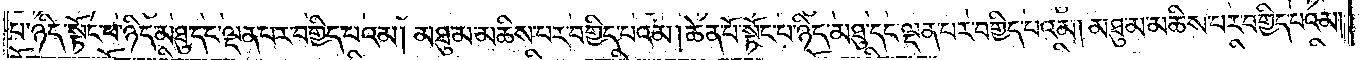པ་ཉིད་སྟོང་པ་ཉིད་མཐུ་དང་ལྡན་པར་བགྱིད་པའམ། མཐུ་མ་མཆིས་པར་བགྱིད་པའམ། ཆེན་པོ་སྟོང་པ་ཉིད་མཐུ་དང་ལྡན་པར་བགྱིད་པའམ། མཐུ་མ་མཆིས་པར་བགྱིད་པའམ།
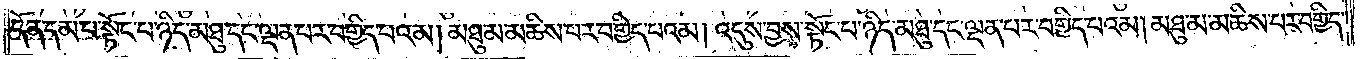དོན་དམ་པ་སྟོང་པ་ཉིད་མཐུ་དང་ལྡན་པར་བགྱིད་པའམ། མཐུ་མ་མཆིས་པར་བགྱིད་པའམ། འདུས་བྱས་སྟོང་པ་ཉིད་མཐུ་དང་ལྡན་པར་བགྱིད་པའམ། མཐུ་མ་མཆིས་པར་བགྱིད་
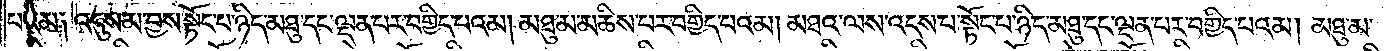པའམ༑ འདུས་མ་བྱས་སྟོང་པ་ཉིད་མཐུ་དང་ལྡན་པར་བགྱིད་པའམ། མཐུ་མ་མཆིས་པར་བགྱིད་པའམ། མཐའ་ལས་འདས་པ་སྟོང་པ་ཉིད་མཐུ་དང་ལྡན་པར་བགྱིད་པའམ། མཐུ་མ་
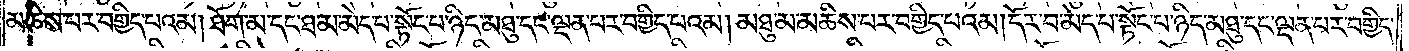མཆིས་པར་བགྱིད་པའམ། ཐོག་མ་དང་ཐ་མ་མེད་པ་སྟོང་པ་ཉིད་མཐུ་དང་ལྡན་པར་བགྱིད་པའམ། མཐུ་མ་མཆིས་པར་བགྱིད་པའམ། དོར་བ་མེད་པ་སྟོང་པ་ཉིད་མཐུ་དང་ལྡན་པར་བགྱིད་
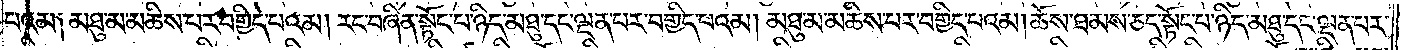པའམ༑ མཐུ་མ་མཆིས་པར་བགྱིད་པའམ། རང་བཞིན་སྟོང་པ་ཉིད་མཐུ་དང་ལྡན་པར་བགྱིད་པའམ། མཐུ་མ་མཆིས་པར་བགྱིད་པའམ། ཆོས་ཐམས་ཅད་སྟོང་པ་ཉིད་མཐུ་དང་ལྡན་པར་
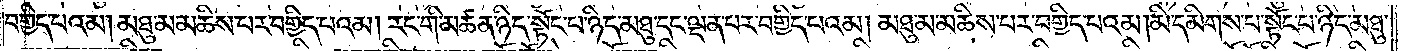བགྱིད་པའམ། མཐུ་མ་མཆིས་པར་བགྱིད་པའམ། རང་གི་མཚན་ཉིད་སྟོང་པ་ཉིད་མཐུ་དང་ལྡན་པར་བགྱིད་པའམ། མཐུ་མ་མཆིས་པར་བགྱིད་པའམ། མི་དམིགས་པ་སྟོང་པ་ཉིད་མཐུ་
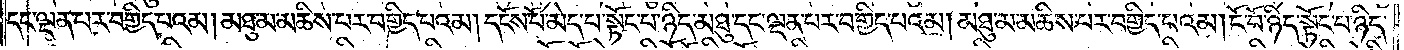དང་ལྡན་པར་བགྱིད་པའམ། མཐུ་མ་མཆིས་པར་བགྱིད་པའམ། དངོས་པོ་མེད་པ་སྟོང་པ་ཉིད་མཐུ་དང་ལྡན་པར་བགྱིད་པའམ། མཐུ་མ་མཆིས་པར་བགྱིད་པའམ། ངོ་བོ་ཉིད་སྟོང་པ་ཉིད་
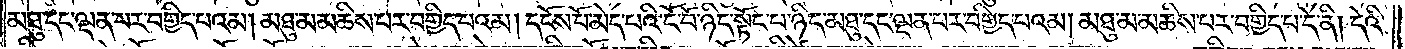མཐུ་དང་ལྡན་པར་བགྱིད་པའམ། མཐུ་མ་མཆིས་པར་བགྱིད་པའམ། དངོས་པོ་མེད་པའི་ངོ་བོ་ཉིད་སྟོང་པ་ཉིད་མཐུ་དང་ལྡན་པར་བགྱིད་པའམ། མཐུ་མ་མཆིས་པར་བགྱིད་པ་དེ་ནི། དེའི་
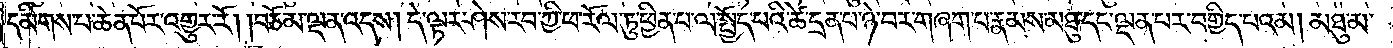དམིགས་པ་ཆེན་པོར་འགྱུར་རོ། །བཅོམ་ལྡན་འདས། དེ་ལྟར་ཤེས་རབ་ཀྱི་ཕ་རོལ་ཏུ་ཕྱིན་པ་ལ་སྤྱོད་པའི་ཚེ་དྲན་པ་ཉེ་བར་གཞག་པ་རྣམས་མཐུ་དང་ལྡན་པར་བགྱིད་པའམ། མཐུ་མ་
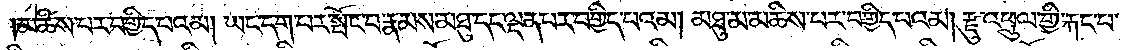མཆིས་པར་བགྱིད་པའམ། ཡང་དག་པར་སྤོང་བ་རྣམས་མཐུ་དང་ལྡན་པར་བགྱིད་པའམ། མཐུ་མ་མཆིས་པར་བགྱིད་པའམ། རྫུ་འཕྲུལ་གྱི་རྐང་པ་
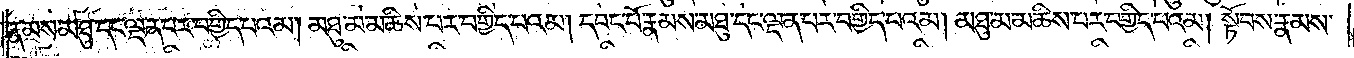རྣམས་མཐུ་དང་ལྡན་པར་བགྱིད་པའམ། མཐུ་མ་མཆིས་པར་བགྱིད་པའམ། དབང་པོ་རྣམས་མཐུ་དང་ལྡན་པར་བགྱིད་པའམ། མཐུ་མ་མཆིས་པར་བགྱིད་པའམ། སྟོབས་རྣམས་
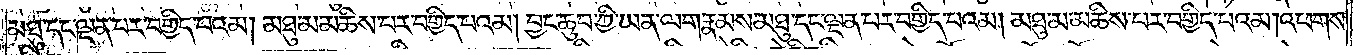མཐུ་དང་ལྡན་པར་བགྱིད་པའམ། མཐུ་མ་མཆིས་པར་བགྱིད་པའམ། བྱང་ཆུབ་ཀྱི་ཡན་ལག་རྣམས་མཐུ་དང་ལྡན་པར་བགྱིད་པའམ། མཐུ་མ་མཆིས་པར་བགྱིད་པའམ། འཕགས་
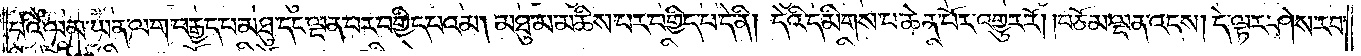པའི་ལམ་ཡན་ལག་བརྒྱད་པ་མཐུ་དང་ལྡན་པར་བགྱིད་པའམ། མཐུ་མ་མཆིས་པར་བགྱིད་པ་དེ་ནི། དེའི་དམིགས་པ་ཆེན་པོར་འགྱུར་རོ། །བཅོམ་ལྡན་འདས། དེ་ལྟར་ཤེས་རབ་
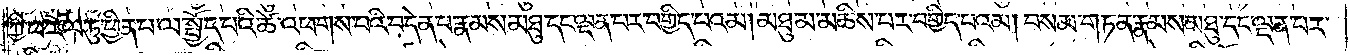ཀྱི་ཕ་རོལ་ཏུ་ཕྱིན་པ་ལ་སྤྱོད་པའི་ཚེ་འཕགས་པའི་བདེན་པ་རྣམས་མཐུ་དང་ལྡན་པར་བགྱིད་པའམ། མཐུ་མ་མཆིས་པར་བགྱིད་པའམ། བསམ་གཏན་རྣམས་མཐུ་དང་ལྡན་པར་
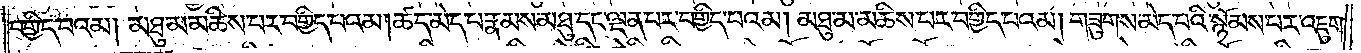བགྱིད་པའམ། མཐུ་མ་མཆིས་པར་བགྱིད་པའམ། ཚད་མེད་པ་རྣམས་མཐུ་དང་ལྡན་པར་བགྱིད་པའམ། མཐུ་མ་མཆིས་པར་བགྱིད་པའམ། གཟུགས་མེད་པའི་སྙོམས་པར་འཇུག་
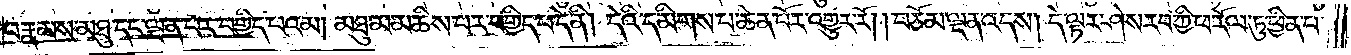པ་རྣམས་མཐུ་དང་ལྡན་པར་བགྱིད་པའམ། མཐུ་མ་མཆིས་པར་བགྱིད་པ་དེ་ནི། དེའི་དམིགས་པ་ཆེན་པོར་འགྱུར་རོ། །བཅོམ་ལྡན་འདས། དེ་ལྟར་ཤེས་རབ་ཀྱི་ཕ་རོལ་ཏུ་ཕྱིན་པ་
